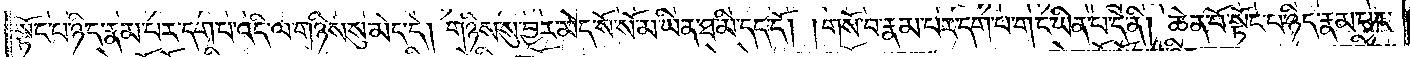སྟོང་པ་ཉིད་རྣམ་པར་དག་པ་འདི་ལ་གཉིས་སུ་མེད་དེ། གཉིས་སུ་བྱར་མེད་སོ་སོ་མ་ཡིན་ཐ་མི་དད་དོ། །གསོ་བ་རྣམ་པར་དག་པ་གང་ཡིན་པ་དེ་ནི། ཆེན་པོ་སྟོང་པ་ཉིད་རྣམ་པར་
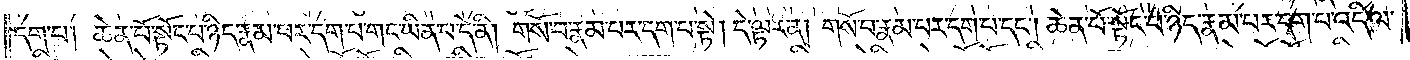དག་པ། ཆེན་པོ་སྟོང་པ་ཉིད་རྣམ་པར་དག་པ་གང་ཡིན་པ་དེ་ནི། གསོ་བ་རྣམ་པར་དག་པ་སྟེ། དེ་ལྟར་ན། གསོ་བ་རྣམ་པར་དག་པ་དང༌། ཆེན་པོ་སྟོང་པ་ཉིད་རྣམ་པར་དག་པ་འདི་ལ་
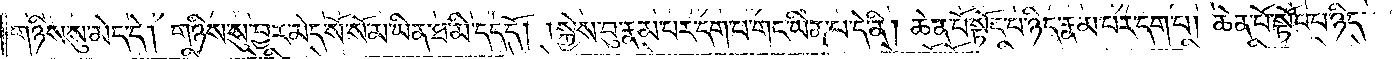གཉིས་སུ་མེད་དེ། གཉིས་སུ་བྱར་མེད་སོ་སོ་མ་ཡིན་ཐ་མི་དད་དོ། །སྐྱེས་བུ་རྣམ་པར་དག་པ་གང་ཡིན་པ་དེ་ནི། ཆེན་པོ་སྟོང་པ་ཉིད་རྣམ་པར་དག་པ། ཆེན་པོ་སྟོང་པ་ཉིད་
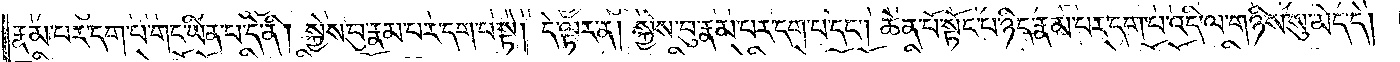རྣམ་པར་དག་པ་གང་ཡིན་པ་དེ་ནི། སྐྱེས་བུ་རྣམ་པར་དག་པ་སྟེ། དེ་ལྟར་ན། སྐྱེས་བུ་རྣམ་པར་དག་པ་དང༌། ཆེན་པོ་སྟོང་པ་ཉིད་རྣམ་པར་དག་པ་འདི་ལ་གཉིས་སུ་མེད་དེ།
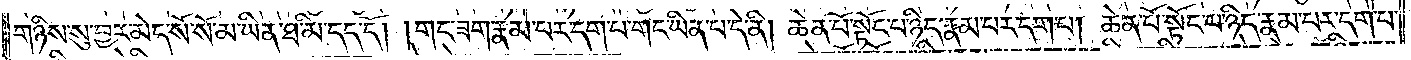གཉིས་སུ་བྱར་མེད་སོ་སོ་མ་ཡིན་ཐ་མི་དད་དོ། །གང་ཟག་རྣམ་པར་དག་པ་གང་ཡིན་པ་དེ་ནི། ཆེན་པོ་སྟོང་པ་ཉིད་རྣམ་པར་དག་པ། ཆེན་པོ་སྟོང་པ་ཉིད་རྣམ་པར་དག་པ་
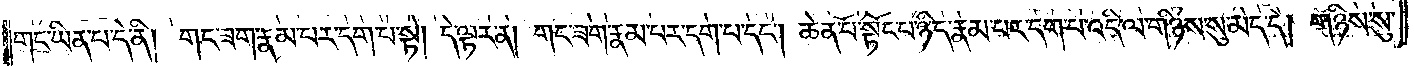གང་ཡིན་པ་དེ་ནི། གང་ཟག་རྣམ་པར་དག་པ་སྟེ། དེ་ལྟར་ན། ཟང་ཟག་རྣམ་པར་དག་པ་དང༌། ཆེན་པོ་སྟོང་པ་ཉིད་རྣམ་པར་དག་པ་འདི་ལ་གཉིས་སུ་མེད་དེ། གཉིས་སུ་
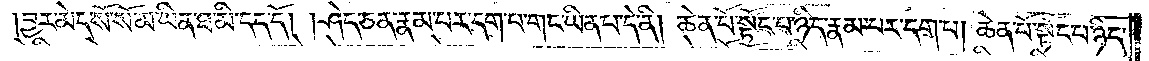བྱར་མེད་སོ་སོ་མ་ཡིན་ཐ་མི་དད་དོ། ཤེད་ཅན་རྣམ་པར་དག་པ་གང་ཡིན་པ་དེ་ནི། ཆེན་པོ་སྟོང་པ་ཉིད་རྣམ་པར་དག་པ། ཆེན་པོ་སྟོང་པ་ཉིད་
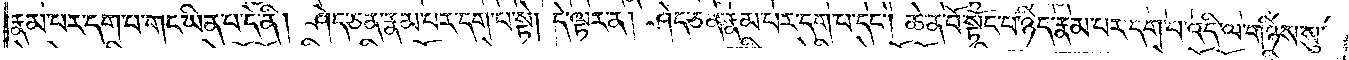རྣམ་པར་དག་པ་གང་ཡིན་པ་དེ་ནི། ཤེད་ཅན་རྣམ་པར་དག་པ་སྟེ། དེ་ལྟར་ན། ཤེད་ཅན་རྣམ་པར་དག་པ་དང༌། ཆེན་པོ་སྟོང་པ་ཉིད་རྣམ་པར་དག་པ་འདི་ལ་གཉིས་སུ་
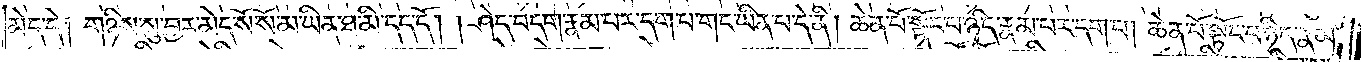མེད་དེ། གཉིས་སུ་བྱར་མེད་སོ་སོ་མ་ཡིན་ཐ་མི་དད་དོ། །ཤེད་བདག་རྣམ་པར་དག་པ་གང་ཡིན་པ་དེ་ནི། ཆེན་པོ་སྟོང་པ་ཉིད་རྣམ་པར་དག་པ། ཆེན་པོ་སྟོང་པ་ཉིད་རྣམ་
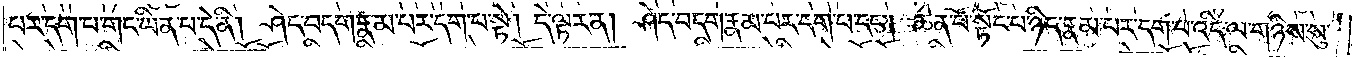པར་དག་པ་གང་ཡིན་པ་དེ་ནི། ཤེད་བདག་རྣམ་པར་དག་པ་སྟེ། དེ་ལྟར་ན། ཤེད་བདག་རྣམ་པར་དག་པ་དང༌། ཆེན་པོ་སྟོང་པ་ཉིད་རྣམ་པར་དག་པ་འདི་ལ་གཉིས་སུ་
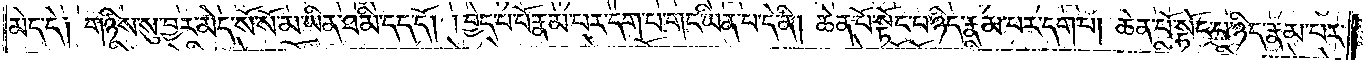མེད་དེ། གཉིས་སུ་བྱར་མེད་སོ་སོ་མ་ཡིན་ཐ་མི་དད་དོ། །བྱེད་པ་པོ་རྣམ་པར་དག་པ་གང་ཡིན་པ་དེ་ནི། ཆེན་པོ་སྟོང་པ་ཉིད་རྣམ་པར་དག་པ། ཆེན་པོ་སྟོང་པ་ཉིད་རྣམ་པར་
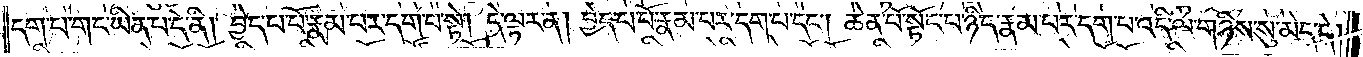དག་པ་གང་ཡིན་པ་དེ་ནི། བྱེད་པ་པོ་རྣམ་པར་དག་པ་སྟེ། དེ་ལྟར་ན། བྱེད་པ་པོ་རྣམ་པར་དག་པ་དང༌། ཆེན་པོ་སྟོང་པ་ཉིད་རྣམ་པར་དག་པ་འདི་ལ་གཉིས་སུ་མེད་དེ།
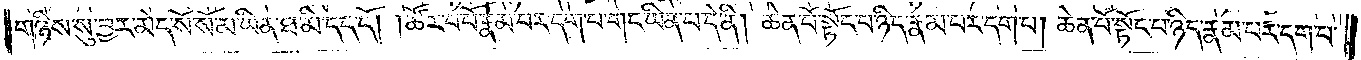གཉིས་སུ་བྱར་མེད་སོ་སོ་མ་ཡིན་ཐ་མི་དད་དོ། །ཚོར་བ་པོ་རྣམ་པར་དག་པ་གང་ཡིན་པ་དེ་ནི། ཆེན་པོ་སྟོང་པ་ཉིད་རྣམ་པར་དག་པ། ཆེན་པོ་སྟོང་པ་ཉིད་རྣམ་པར་དག་པ་
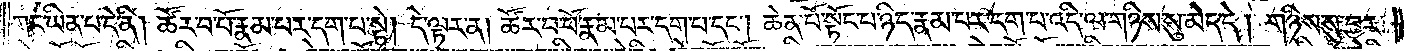གང་ཡིན་པ་དེ་ནི། ཚོར་བ་པོ་རྣམ་པར་དག་པ་སྟེ། དེ་ལྟར་ན། ཚོར་བ་པོ་རྣམ་པར་དག་པ་དང༌། ཆེན་པོ་སྟོང་པ་ཉིད་རྣམ་པར་དག་པ་འདི་ལ་གཉིས་སུ་མེད་དེ། གཉིས་སུ་བྱར་
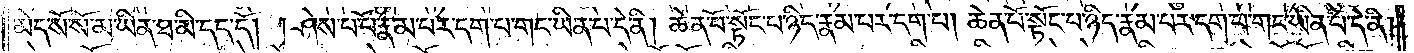མེད་སོ་སོ་མ་ཡིན་ཐ་མི་དད་དོ། །ཤེས་པ་པོ་རྣམ་པར་དག་པ་གང་ཡིན་པ་དེ་ནི། ཆེན་པོ་སྟོང་པ་ཉིད་རྣམ་པར་དག་པ། ཆེན་པོ་སྟོང་པ་ཉིད་རྣམ་པར་དག་པ་གང་ཡིན་པ་དེ་ནི།
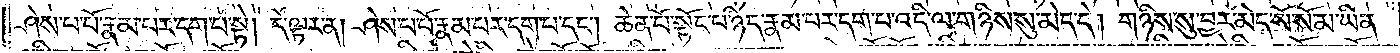ཤེས་པ་པོ་རྣམ་པར་དག་པ་སྟེ། དེ་ལྟར་ན། ཤེས་པ་པོ་རྣམ་པར་དག་པ་དང༌། ཆེན་པོ་སྟོང་པ་ཉིད་རྣམ་པར་དག་པ་འདི་ལ་གཉིས་སུ་མེད་དེ། གཉིས་སུ་བྱར་མེད་སོ་སོ་མ་ཡིན་
